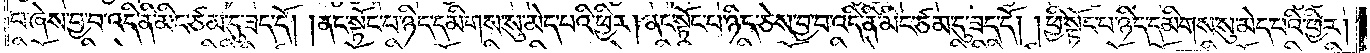པ་ཞེས་བྱ་བ་འདི་ནི་མིང་ཙམ་དུ་ཟད་དོ། །ནང་སྟོང་པ་ཉིད་དམིགས་སུ་མེད་པའི་ཕྱིར། ནང་སྟོང་པ་ཉིད་ཅེས་བྱ་བ་འདི་ནི་མིང་ཙམ་དུ་ཟད་དོ། །ཕྱི་སྟོང་པ་ཉིད་དམིགས་སུ་མེད་པའི་ཕྱིར།
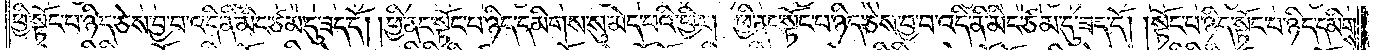ཕྱི་སྟོང་པ་ཉིད་ཅེས་བྱ་བ་འདི་ནི་མིང་ཙམ་དུ་ཟད་དོ། །ཕྱི་ནང་སྟོང་པ་ཉིད་དམིགས་སུ་མེད་པའི་ཕྱིར། ཕྱི་ནང་སྟོང་པ་ཉིད་ཅེས་བྱ་བ་འདི་ནི་མིང་ཙམ་དུ་ཟད་དོ། །སྟོང་པ་ཉིད་སྟོང་པ་ཉིད་དམིགས་
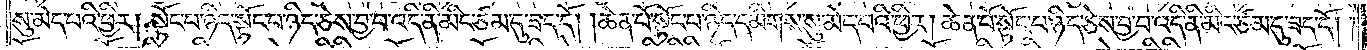སུ་མེད་པའི་ཕྱིར། སྟོང་པ་ཉིད་སྟོང་པ་ཉིད་ཅེས་བྱ་བ་འདི་ནི་མིང་ཙམ་དུ་ཟད་དོ། །ཆེན་པོ་སྟོང་པ་ཉིད་དམིགས་སུ་མེད་པའི་ཕྱིར། ཆེན་པོ་སྟོང་པ་ཉིད་ཅེས་བྱ་བ་འདི་ནི་མིང་ཙམ་དུ་ཟད་དོ། །
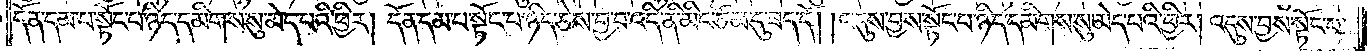དོན་དམ་པ་སྟོང་པ་ཉིད་དམིགས་སུ་མེད་པའི་ཕྱིར། དོན་དམ་པ་སྟོང་པ་ཉིད་ཅེས་བྱ་བ་འདི་ནི་མིང་ཙམ་དུ་ཟད་དོ། །འདུས་བྱས་སྟོང་པ་ཉིད་དམིགས་སུ་མེད་པའི་ཕྱིར། འདུས་བྱས་སྟོང་པ་
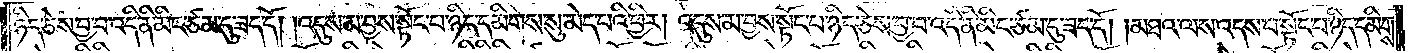ཉིད་ཅེས་བྱ་བ་འདི་ནི་མིང་ཙམ་དུ་ཟད་དོ། །འདུས་མ་བྱས་སྟོང་པ་ཉིད་དམིགས་སུ་མེད་པའི་ཕྱིར། འདུས་མ་བྱས་སྟོང་པ་ཉིད་ཅེས་བྱ་བ་འདི་ནི་མིང་ཙམ་དུ་ཟད་དོ། །མཐའ་ལས་འདས་པ་སྟོང་པ་ཉིད་དམིགས་
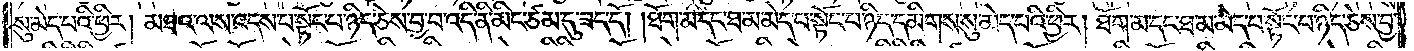སུ་མེད་པའི་ཕྱིར། མཐའ་ལས་འདས་པ་སྟོང་པ་ཉིད་ཅེས་བྱ་བ་འདི་ནི་མིང་ཙམ་དུ་ཟད་དོ། །ཐོག་མ་དང་ཐ་མ་མེད་པ་སྟོང་པ་ཉིད་དམིགས་སུ་མེད་པའི་ཕྱིར། ཐོག་མ་དང་ཐ་མ་མེད་པ་སྟོང་པ་ཉིད་ཅེས་བྱ་
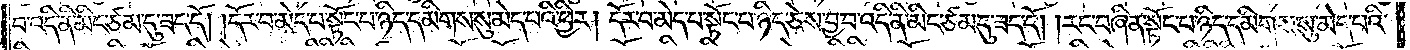བ་འདི་ནི་མིང་ཙམ་དུ་ཟད་དོ། །དོར་བ་མེད་པ་སྟོང་པ་ཉིད་དམིགས་སུ་མེད་པའི་ཕྱིར། དོར་བ་མེད་པ་སྟོང་པ་ཉིད་ཅེས་བྱ་བ་འདི་ནི་མིང་ཙམ་དུ་ཟད་དོ། །རང་བཞིན་སྟོང་པ་ཉིད་དམིགས་སུ་མེད་པའི་
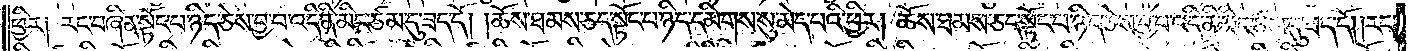ཕྱིར། རང་བཞིན་སྟོང་པ་ཉིད་ཅེས་བྱ་བ་འདི་ནི་མིང་ཙམ་དུ་ཟད་དོ། །ཆོས་ཐམས་ཅད་སྟོང་པ་ཉིད་དམིགས་སུ་མེད་པའི་ཕྱིར། ཆོས་ཐམས་ཅད་སྟོང་པ་ཉིད་ཅེས་བྱ་བ་འདི་ནི་མིང་ཙམ་དུ་ཟད་དོ། །རང་
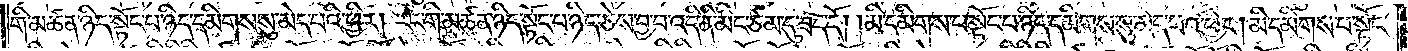གི་མཚན་ཉིད་སྟོང་པ་ཉིད་དམིགས་སུ་མེད་པའི་ཕྱིར། རང་གི་མཚན་ཉིད་སྟོང་པ་ཉིད་ཅེས་བྱ་བ་འདི་ནི་མིང་ཙམ་དུ་ཟད་དོ། །མི་དམིགས་པ་སྟོང་པ་ཉིད་དམིགས་སུ་མེད་པའི་ཕྱིར། མི་དམིགས་པ་སྟོང་
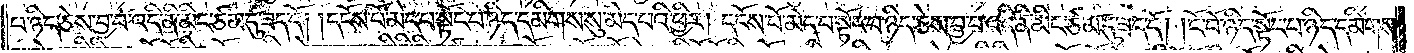པ་ཉིད་ཅེས་བྱ་བ་འདི་ནི་མིང་ཙམ་དུ་ཟད་དོ། །དངོས་པོ་མེད་པ་སྟོང་པ་ཉིད་དམིགས་སུ་མེད་པའི་ཕྱིར། དངོས་པོ་མེད་པ་སྟོང་པ་ཉིད་ཅེས་བྱ་བ་འདི་ནི་མིང་ཙམ་དུ་ཟད་དོ། །ངོ་བོ་ཉིད་སྟོང་པ་ཉིད་དམིགས་
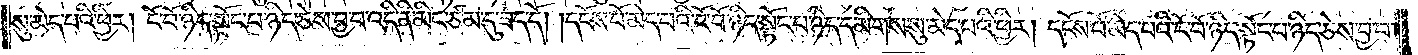སུ་མེད་པའི་ཕྱིར། ངོ་བོ་ཉིད་སྟོང་པ་ཉིད་ཅེས་བྱ་བ་འདི་ནི་མིང་ཙམ་དུ་ཟད་དོ། །དངོས་པོ་མེད་པའི་ངོ་བོ་ཉིད་སྟོང་པ་ཉིད་དམིགས་སུ་མེད་པའི་ཕྱིར། དངོས་པོ་མེད་པའི་ངོ་བོ་ཉིད་སྟོང་པ་ཉིད་ཅེས་བྱ་བ་
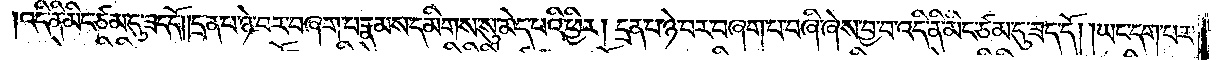འདི་ནི་མིང་ཙམ་དུ་ཟད་དོ། །དྲན་པ་ཉེ་བར་བཞག་པ་རྣམས་དམིགས་སུ་མེད་པའི་ཕྱིར། དྲན་པ་ཉེ་བར་བཞག་པ་བཞི་ཞེས་བྱ་བ་འདི་ནི་མིང་ཙམ་དུ་ཟད་དོ། །ཡང་དག་པར་
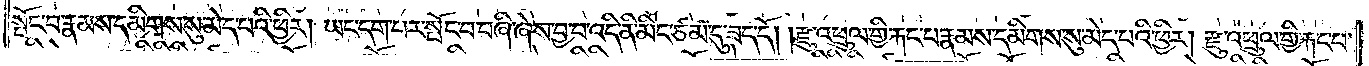སྤོང་བ་རྣམས་དམིགས་སུ་མེད་པའི་ཕྱིར། ཡང་དག་པར་སྤོང་བ་བཞི་ཞེས་བྱ་བ་འདི་ནི་མིང་ཙམ་དུ་ཟད་དོ། །རྫུ་འཕྲུལ་གྱི་རྐང་པ་རྣམས་དམིགས་སུ་མེད་པའི་ཕྱིར། རྫུ་འཕྲུལ་གྱི་རྐང་པ་
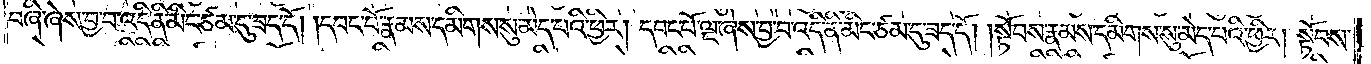བཞི་ཞེས་བྱ་བ་འདི་ནི་མིང་ཙམ་དུ་ཟད་དོ། །དབང་པོ་རྣམས་དམིགས་སུ་མེད་པའི་ཕྱིར། དབང་པོ་ལྔ་ཞེས་བྱ་བ་འདི་ནི་མིང་ཙམ་དུ་ཟད་དོ། །སྟོབས་རྣམས་དམིགས་སུ་མེད་པའི་ཕྱིར། སྟོབས་
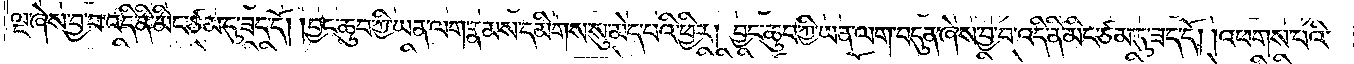ལྔ་ཞེས་བྱ་བ་འདི་ནི་མིང་ཙམ་དུ་ཟད་དོ། །བྱང་ཆུབ་ཀྱི་ཡན་ལག་རྣམས་དམིགས་སུ་མེད་པའི་ཕྱིར། བྱང་ཆུབ་ཀྱི་ཡན་ལག་བདུན་ཞེས་བྱ་བ་འདི་ནི་མིང་ཙམ་དུ་ཟད་དོ། །འཕགས་པའི་
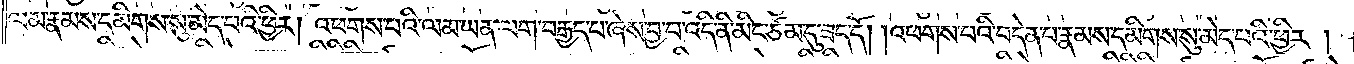ལམ་རྣམས་དམིགས་སུ་མེད་པའི་ཕྱིར། འཕགས་པའི་ལམ་ཡན་ལག་བརྒྱད་པ་ཞེས་བྱ་བ་འདི་ནི་མིང་ཙམ་དུ་ཟད་དོ། །འཕགས་པའི་བདེན་པ་རྣམས་དམིགས་སུ་མེད་པའི་ཕྱིར།
